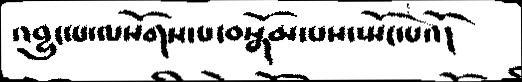འབྱུང་པ་ལསོགས་པ་བསྒོམ་པས་སྤོང་པའོ།
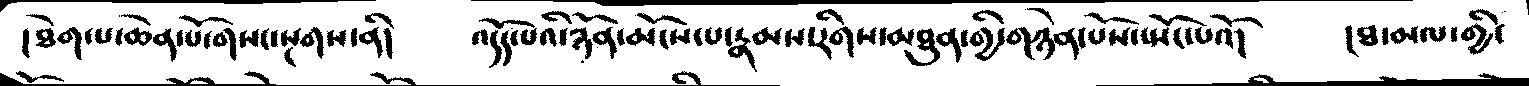།ཐེག་པ་ཆེན་པོ་གསང་སྔགས་ནི།   འདོད་པའི་ཉོན་མོངས་པ་རྣམས་རིགས་མཐུན་གྱི་གཉེན་པོས་སྤོང་པའོ།   །ཐ་མལ་གྱི་
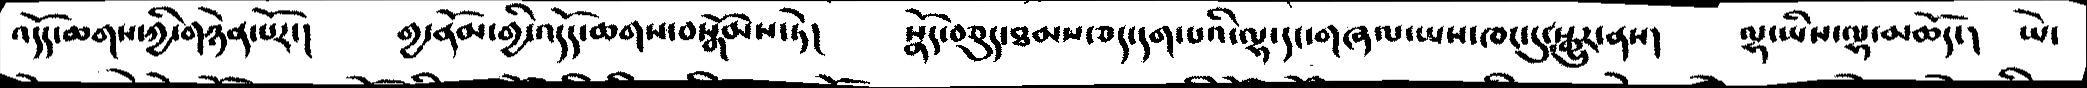འདོད་ཆགས་ཀྱི་གཉེན་པོར་།   གྱ་ནོམ་གྱི་འདོད་ཆགས་བསྒོམས་ཏེ།   སྣོད་བཅུད་ཐམས་ཅད་དག་པའི་ལྷ་དང་གཞལ་ཡས་ཁང་དུ་སྒྱུར་ནས།   ལྷ་ཡིས་ལྷ་མཆོད་།  ཡེ་
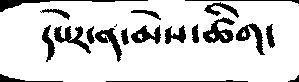དཔེར་ན་མེས་ཚིག་
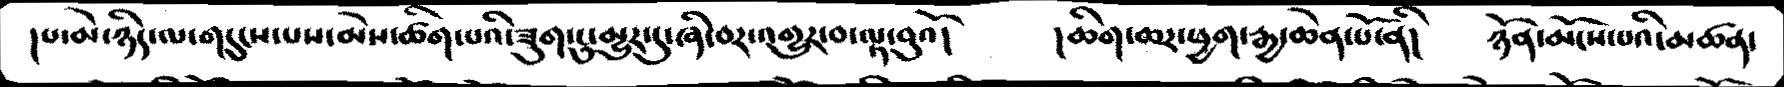།པ་མེད་ཉིད་ལ་གདུངས་པས་མེས་ཚིག་པའི་ཟུག་ངུ་མྱུར་དུ་ཞི་བར་འགྱུར་བ་ལྟ་བུའོ།    །ཆིག་ཆར་ཕྱག་རྒྱ་ཆེན་པོ་ནི།   ཉོན་མོངས་པའི་མཚན་
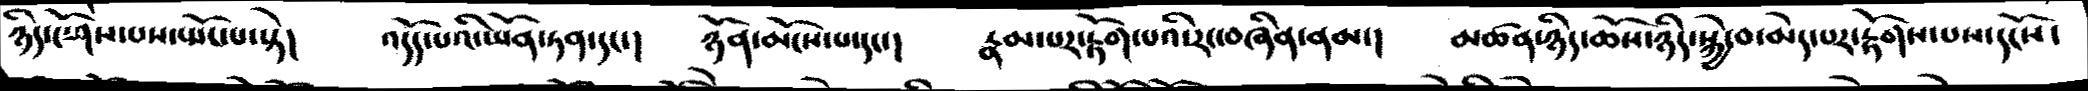ཉིད་ངོ་ཤེས་པས་སྤོང་པ་སྟེ།   འདོད་པའི་ཡོན་ཏན་དང་།   ཉོན་མོངས་པ་དང་།   རྣམ་པར་རྟོག་པའི་རང་བཞིན་ནམ་།  མཚན་ཉིད་ཆོས་ཉིད་སྐྱེ་བ་མེད་པར་རྟོགས་པས་དངོས་
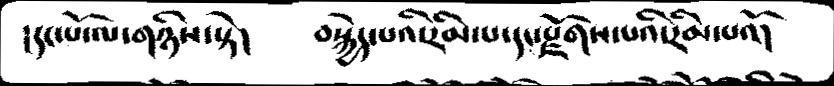།དང་པོ་ལ་གཉིས་སྟེ།   བསྐྱེད་པའི་རིམ་པ་དང་རྫོགས་པའི་རིམ་པའོ།
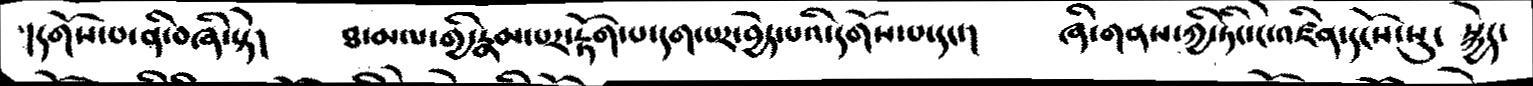།དགོས་པ་ནི་བཞི་སྟེ།    ཐ་མལ་གྱི་རྣམ་པར་རྟོག་པ་དག་པར་བྱེད་པའི་དགོས་པ་དང་།   ཞི་གནས་ཀྱི་ཏིང་ངེ་འཛིན་དངོས་སུ་ སྐྱེད་
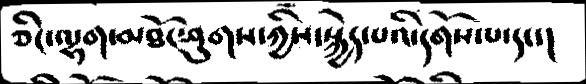ཅིང་ལྷག་མཐོང་ཤུགས་ཀྱིས་སྐྱེད་པའི་དགོས་པ་དང་།
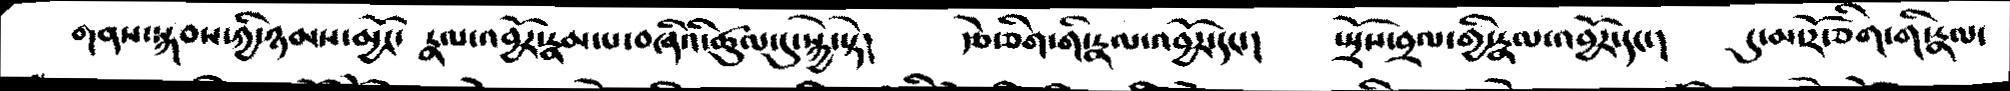གནས་སྐབས་ཀྱི་ཉམས་མྱོང་ རྣལ་འབྱོར་རྣམ་པ་བཞིའི་ཚུལ་དུ་སྐྱེ་སྟེ།   རྩེ་ཅིག་གི་རྣལ་འབྱོར་དང་།   སྤྲོས་བྲལ་གྱི་རྣལ་འབྱོར་དང་།   དུ་མ་རོ་ཅིག་གི་རྣལ་
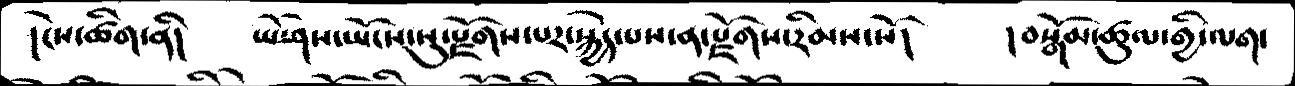།ངེས་ཚིག་ནི།   ཡེ་ཤེས་ཡོངས་སུ་རྫོགས་པར་སྐྱེད་པས་ན་རྫོགས་རིམས་སོ།   །བསྒོམ་ཚུལ་གྱི་ལག་
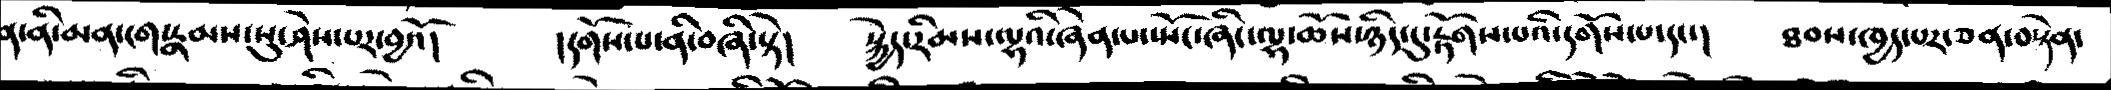ན་ནི་མན་ངག་རྣམས་སུ་ཤེས་པར་བྱའོ།   །དགོས་པ་ནི་བཞི་སྟེ།   སྐྱེད་རིམས་ལྷའི་ཞེན་པ་སྤོང་ཞིང་ཆོས་ཉིད་དུ་རྟོགས་པའི་དགོས་པ་དང་།   ཐབས་ཁྱད་པར་ཅན་བསྟེན་
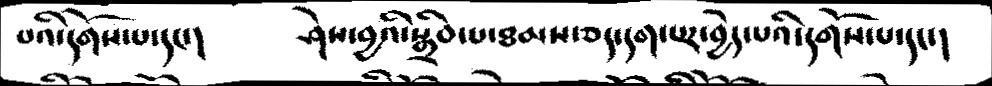པའི་དགོས་པ་དང་།   ཤེས་བྱའི་སྒྲིབ་པ་ཐམས་ཅདདག་པར་བྱེད་པའི་དགོས་པ་དང་།
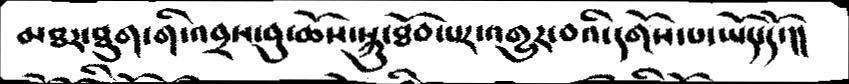མཐར་ཐུག་གི་འབྲས་བུ་ཆོས་སྐུ་ཐོབ་པར་འགྱུར་བའི་དགོས་པ་ཡོད་དོ་།།
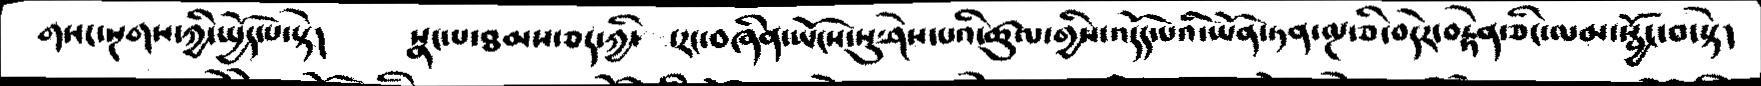གསང་སྔགས་ཀྱི་སྤྱོད་པ་སྟེ།   སྣང་པ་ཐམས་ཅད་ཀྱི་  རང་བཞིན་ཡོངས་སུ་ཤེས་པའི་ཚུལ་གྱིས་འདོད་པའི་ཡོན་ཏན་ལྔ་ཅི་བདེར་བརྟེན་ཅིང་ལམ་སྦྱོང་བ་སྟེ།
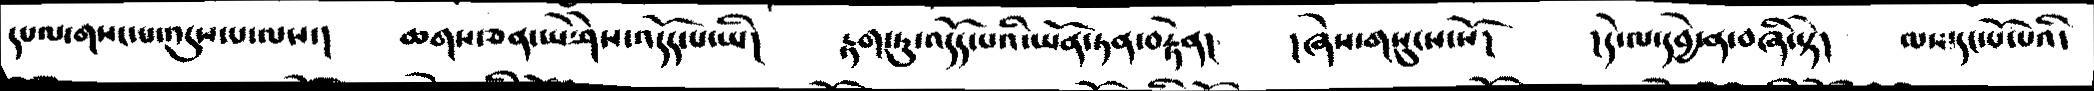དཔལ་གསང་པ་འདུས་པ་ལས་།   ཆགས་ཅན་ཡེ་ཤེས་འདོད་པ་ཡི།   རྟག་ཏུ་འདོད་པའི་ཡོན་ཏན་བརྟེན།   །ཞེས་གསུངས་སོ།   །དེ་ལ་དབྱེ་ན་བཞི་སྟེ།   ལས་དང་པོ་པའི་
